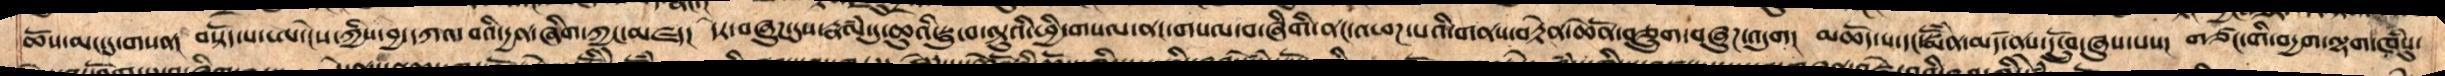ཆོས་མང་དུ་གསན། བསྟོད་པ་ཨ་ངེས་ཀྱི་བྱ་དཀའ་བའི་དྱན་ཞིག་ཀྱང་མཛད། དེར་བཞུཌ་དུས་རྣལཾ་དུ་ཆུའི་སྦུ་བ་ལྟུའི་ཕྱི་གསལ་ནང་གསལ་བ་ཞིགི་ནང་འཕཌ་པའི་གནས་བརྟེན་ཆེནོ་བཅྲུག་བཞུཌ་འདུག།  མཆོད་པ་དང་སྨོཾན་མཛད་ནས་དངྲོུབ་ཞུས་པས།  གཙང་གི་བདྱག་ལྷག་ཁཾསུ་
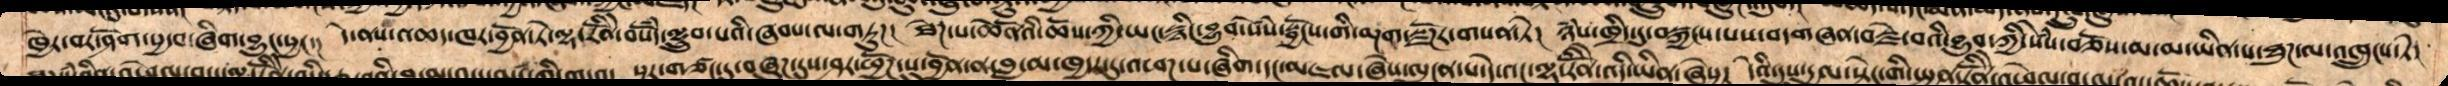ཁྱེར་བར་ཤོག་སྱ་བ་ཞིག་བྱུང་སྱང་།  དེ་ནས་འཆད་ཁར་བྱོན་ཏེ་ལྷ་རིནོི་བསོཾད་ལྷྲུབ་པའི་ཞབས་ལ་གཏུཌ།  ཐེཌ་པ་ཆེནོའི་ཆོས་ཀྱི་ཡང་སྙིང་བྱུབ་སེཾས་སྦྱོངས་གི་མྔག་སྫོཌར་གསན་ཏེ།  ཉཾས་ཁྲིད་དུ་བསྐྱངས་པས་བདགཞན་བརྗེ་བའི་བྱུབ་ཀྱི་སེཾས་བཅོས་མ་མ་ཡིན་པ་ཐུཌ་ལ་འཁྲུངས་ཏེ།
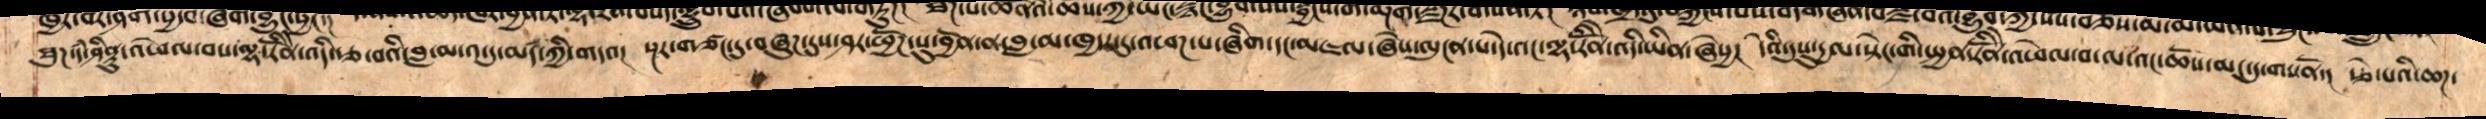ཐུཌ་དཾ་ཤིནྟུ་འཕེལ་བས་ལྷ་རིནོེ་འདི་རྩ་བའི་བླ་མ་འ་དུ་མཛད་ཀྱི་གདའ།  སྔར་གཙང་དུ་བཞུཌ་དུས་ཤར་ཕྱོཌ་སུ་བྱོན་ན་བླ་མ་ཁྱདར་དུ་འཕཌ་པ་ཞིག་དང་མཇལ་ཞེས་ལུངན་པ་དེ་འང་ལྷ་རིནོེ་འདི་ཡིན་ཞེསྱ། དེའི་དུསུ་དྱལ་སྟེང་གི་སྤྱན་རིནོེ་འཕེལ་བ་ལ་འང་ཆོས་མང་དུ་གསནོ།  རྩེ་པའི་ཆཌ་
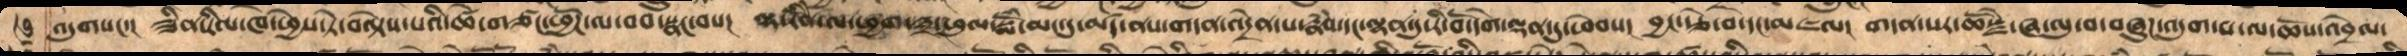འདུགསང་། ཟིན་རིལ་ཁ་ཕྱེས་ཏེ་བལྟེས་པའི་ཚེ་གཙང་ཕྱོཌ་ལ་བབ་སྣང་བས། ལྷ་རིནོེ་ལ་ཕྱག་༣་ཕུལ་སྨོཾ་མང་དུ་མཛད་ནས་གདན་འདྲེན་པ་རྣཾས་དང་ལྷན་དུ་རི་བོ་དགེ་ལྡན་དུ་ཕེབས། བྱང་རྩེ་བ་དང་མཇལ། གདན་སར་ཆོསྗེ་ཞ་ལུ་བ་བཞུཌ་འདུག་པ་ལ་ཆོས་འབྲེལ་
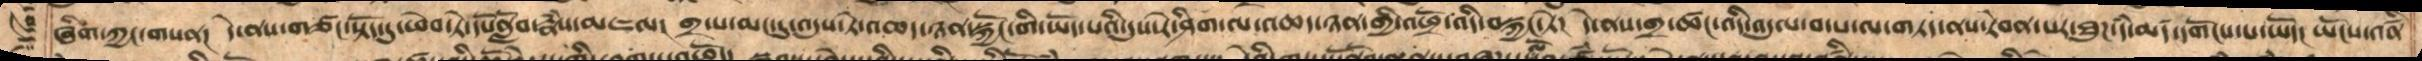ཞིག་ཀྱང་གསན། དེ་ནས་གཙང་སྟོད་དུ་ཕེབ་ཏེ་དཔོནློབ་རྣཾས་མཇལ། གྲ་པ་མང་དུ་འདུས་ཏེ་འཆད་ཉན་སྐྱོང་གི་ཡོད་པའི་དུས་རེ་ཤིག་ལ་འཆད་ཉན་གྱི་འཕྲོ་འདི་བསྐྱང་ཏེ། དེ་ནས་གྲ་ཚང་འདི་འདུལ་བ་པ་ལ་གཏད་ནས་རེབན་པར་ཐུཌ་དཾ་མཛད་དགོངས་པ་ཡོད། ཡོངས་འཛིན་
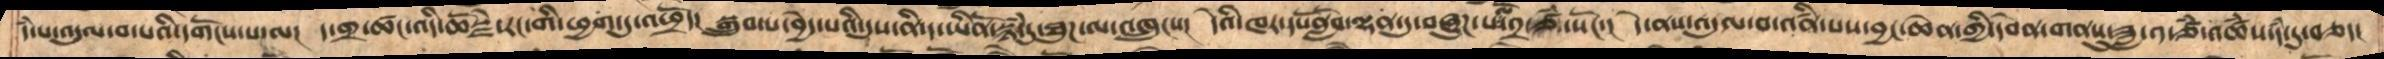དཾ་པ་འདུལ་བ་པའི་དགོངས་པ་ལ།  ད་གྲ་ཚང་འདི་ཆོསྗེ་རང་གི་ཕྱག་ཏུ་འཕྲོད།  སྒྲུབ་པ་བྱེད་པའི་དུས་ནི་ད་ཡིནོ་སྙཾ་དུ་ཐུཌ་ལ་འཁྲུངས།  དེའི་ཁར་དཔོནློབ་ལྷན་དུ་བཞུཌ་པ་ལོ་༢་ཙཾ་སོང་།  དེ་ནས་འདུལ་བ་འཛིན་པས་བྱང་ཆེན་གྱི་དབེན་གནསུ་ཟླ་༡ཙཾ་འཚཾས་དཾ་དུ་བཅད།
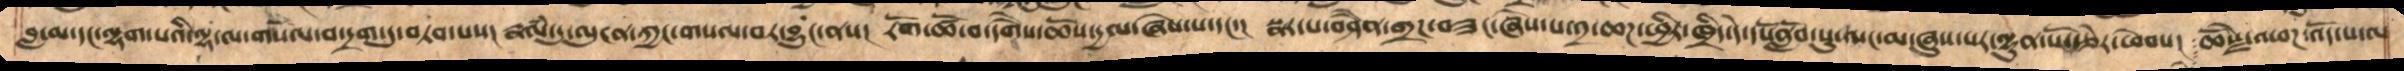བླ་མ་དང་ལྷག་པའི་ལྷ་ལ་གསོལ་བ་དྲག་དུ་བཏབ་པས།  རྣལཾ་དུ་ལུངན་ཀྱང་གསལ་བར་བྱུང་ནས།  རོག་ཚོ་བ་དགཻས་ཆོས་དྱལ་ཞེས་པ་དང་།  སྣར་པ་བཤཻན་གྲཌ་བཟང་ཞེས་པ་༢་ཆཌ་ཕྱིར་ཁྲིད་དེ་དཔོནློབ་སུ་ལང་མ་ཞུས་པར་ལྷུན་པོ་རྩེར་ཕེབས།  ཆོསྗེ་འཕཌ་འོད་པ་ལ
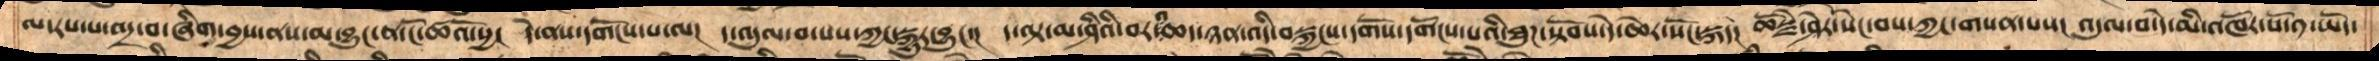ལ་རས་པ་འདྲ་བ་ཞིག་བྱས་ནས་མ་བྱུང་ན་ངོ་ཚའོ་སྱ། དེ་ནས་དགོངས་པ་ལ། ད་འདུལ་བ་པས་ཀྱང་བསྐྱུར་བྱུང་། ད་ལྟ་མ་ཤིའི་བར་འཆད་ཉན་འདི་བསྐྱངས་དགོས་དགོངས་པའི་ཐུཌ་སྟོབས་དེ་ཆེར་སོང་སྐད། ཆོསྗེ་ཤེར་སེང་བས་ཀྱང་གསན་པས། འདུལ་བ་དེ་མི་འཁོར་པོ་༡་ཡོད་
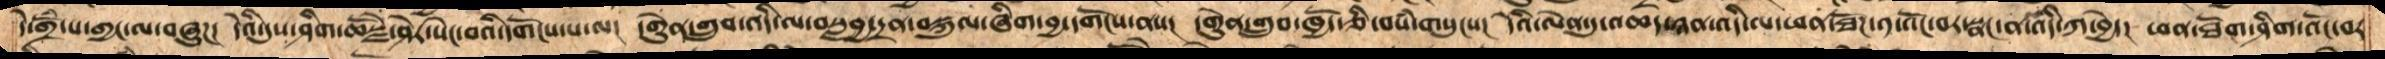དེ་གྲོཾ་པ་གྱང་ལ་བཞུཌ།  དེའི་དུས་ཤིག་ཆོསྗེ་ཤེར་སེང་པའི་དགོངས་པ་ལ།  དགེུན་གྲུབ་འདི་ལ་བསླབྱ་དྲན་བསྐུལ་ཞིག་བྱ་དགོངས་ནས།  དགེུན་གྲུབ་ཁྱོད་ཅི་བསཾ་གསུངས།  དེའི་ལེན་དུ་འཆད་ཉན་འདི་ལ་ཕན་ཐོཌ་༡་འོང་བར་སྣང་ན་འདི་ཀ་བྱེད།  ཕན་ཐོག་ཤིག་འོང་བར
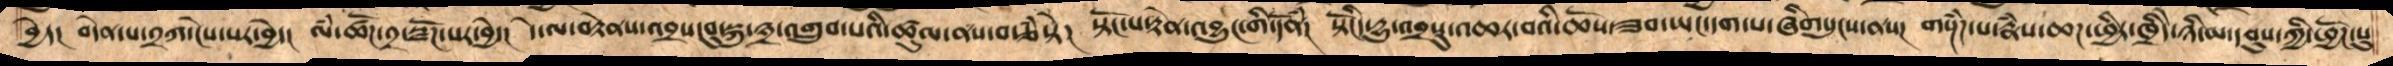བྱེད།  བདེན་པ་༢ཀ་ངེས་པ་བྱེད།  ལཾ་ཚོཌ་༢་སྫོཌ་པར་བྱེད།  དེ་ལ་བརྟེནས་འབྲས་བུ་སྐུ་༣་འགྲུབ་པའི་ཚུལ་ནས་བརྩཾ་ཏེ།  སྟོང་པ་རྟེན་འབྱུང་གི་དོནཾ།  སྟོངིད་དྱུ་འབྲསུ་འཆར་བའི་ཆོས་ཟབ་ཡང་དག་པ་ཞིགསུངས་ནས།  གསྔཌཾ་པ་རྣཾས་ཆཌ་ཕྱིར་ཁྲིདེ་ཉི་མ་དབུས་ཀྱི་ཕྱོཌ་སུ
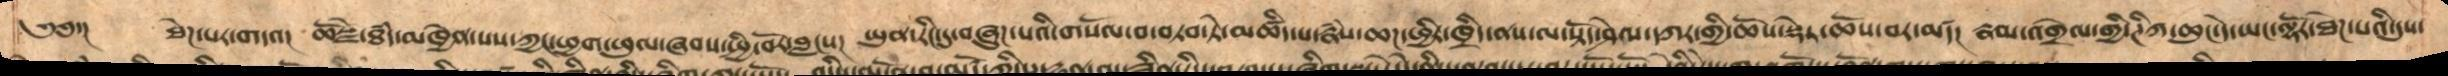༄༅་།   ཐེཌ་པར་གདའ། ཆོསྗེ་ཐཾད་མཁྱེན་པས་ཀྱང་ཕྱག་ཕུལ་ཞབས་སྤྱི་བོར་བླངས། ཡུན་རིང་དུ་བཞུཌ་པའི་གསོལ་བ་བཏབ་ཏེ་མཚིད་པ་རྣཾས་ཆཌཕྱིར་ཁྲིད་ནས་ལ་སྟོད་ཤེལ་དཀར་གྱི་ཆོས་སྡེར་ཆོས་བར་མཛད། རྣམ་འགྲེལ་གྱི་ཊིཀ་ཆུང་དེ་ཡང་ལྷོར་ཐེཌ་པའི་དུས་
